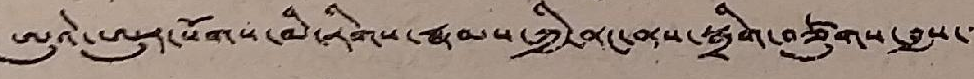ཨུའེ་ཨུར་སོགས་མི་རིགས་རྣམས་ཀྱི་ནང་ནས་སྒྲིག་བཙུགས་བྱས་་་
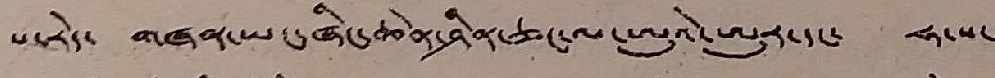པ་རེད་། གཞན་ཡང་ཞིང་ཆེན་ཤིནན་ཅང་ལ་ཨུའེ་ཨུར་དང་ ཧ་ས་
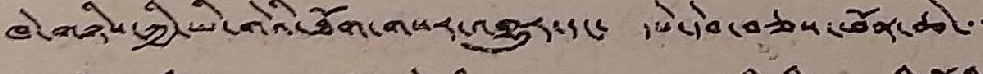ཁེ་གཉིས་ཀྱི་ཡི་གེའེ་ཐོག་གསར་འགྱུར་དང་ དཔེ་དེབ་བཅས་ཕོན་ཆེ་་་
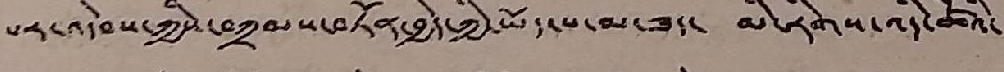པར་འདེབས་ཀྱིས་བཀྲམས་བཏོན་བྱེད་ཀྱི་ཡོད་པ་མ་ཟད་ མི་རིགས་འདི་ཚོའི་
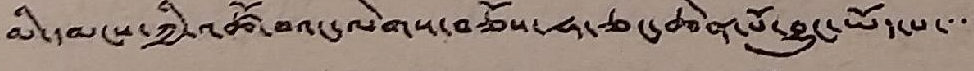མི་དམངས་ཀྱི་འཚོ་བའང་ལེགས་བཅོས་ཧ་ཅང་ཆེན་པོ་བྱུང་ཡོད་པ་་་་
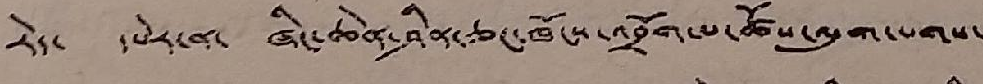རེད། དཔེར་ན་ ཞིང་ཆེན་ཤིན་ཅང་ཁོངས་འབྲོག་པ་ཚོས་ལུག་པགས་
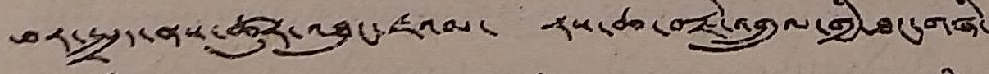ཕར་སྤྲད་ནས་ཚུར་འཐུང་ཇའམ་ རས་ཆ་བརྗེ་འགྲུལ་གྱི་ཐང་གཞི་
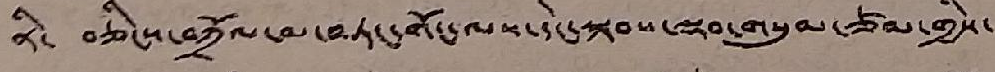ནི་ བཅིངས་བཀྲོལ་མ་བཏང་གོང་ལས་དེང་སྐབས་ལྡབ་གསུམ་ཙམ་གྱིས་
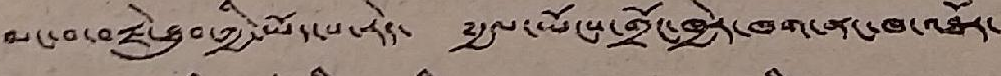མང་བ་བརྗེ་ཐུབ་ཀྱི་ཡོད་པ་རེད་ ༸རྒྱལ་ཡོངས་གྲོང་ཁྱེར་ཁག་ནང་ཁ་འཐོར་
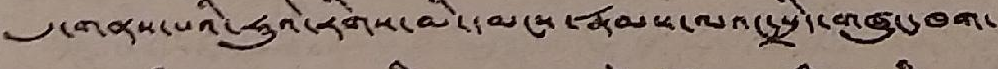དུ་གནས་པའི་ཧུའེ་རིགས་མི་དམངས་རྣམས་ལའང་སྲིད་གཞུང་ཁག་
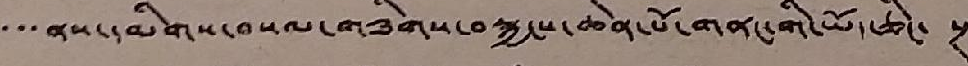་་་ནས་དམིགས་བསལ་གཟིགས་བསྐྱངས་ཆེན་པོ་གནང་གི་ཡོད་ཅིང་ སྔ་
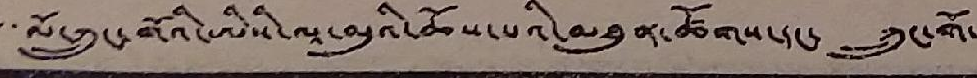་་ལོ་ཀྲུང་གོའི་ཨིསི་ལཱ་མུའི་ཆོས་པའི་མཐུན་ཚོགས་དང་ ཀྲུང་གོ་
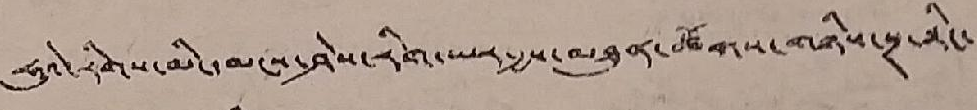ཧུའེ་རིགས་མི་དམངས་ཤེས་རིག་ཡར་རྒྱས་མཐུན་ཚོགས་གཉིས་སྔ་སྟིང་
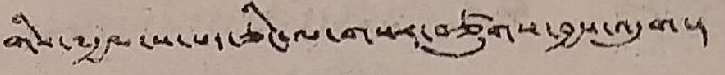གིས་༸རྒྱལ་ས་པད་ཅིང་ལ་གསར་བཙུགས་བྱས་འདུག།
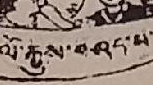ལོ་རྒྱུས་བཤད་པ་
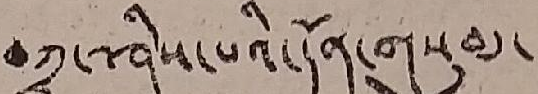བཀྲ་ཤིས་པའི་དོན་གསུམ་
